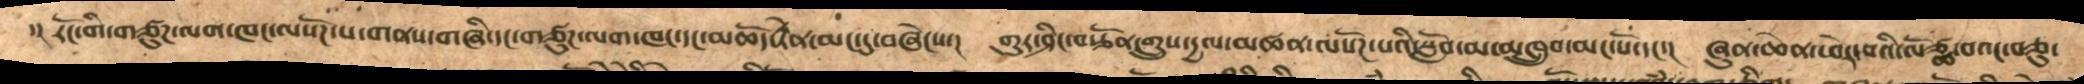་། རོང་གི་གཙུཌ་ལག་ཁང་ལ་སོཌ་པ་གནས་གཞི་དང་གཙུཌ་ལག་ཁང་དང་མཆོད་རྟེན་མང་དུ་བཞེངས་།   གུར་ཤིང་བརྩོན་གྲུས་དྱལ་མཚན་ལ་སོཌ་པའི་སློབ་མ་མཁྲུབ་མང་པོ་དང་།   ཞུན་ཆེན་ཕེར་བའི་ལོཙྪ་བའང་བཅུ་
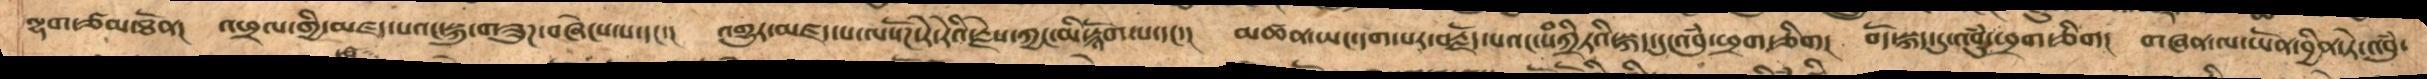ལྷག་ཙམ་ཐོན།  འཕྲལ་གྱི་མཛད་པའང་སྐུ་གཟུཌ་བཞེངས་པ་དང་།  འགྱུར་མཛད་པ་ལསོཌ་རེ་རེའི་རྗེས་ཀྱང་མི་རྙོག་པ་དང་།    མཚན་ཡང་དག་པར་བརྗོད་པའང་སཾཀྲིཏའི་སྐད་དུ་འབུཾ་ཕྲག་ཅིག།   བོད་སྐད་དུ་འབུཾ་ཕྲག་ཅིག།   གཞན་ལ་ཡོན་བྱིན་ཏེ་འབུཾ་
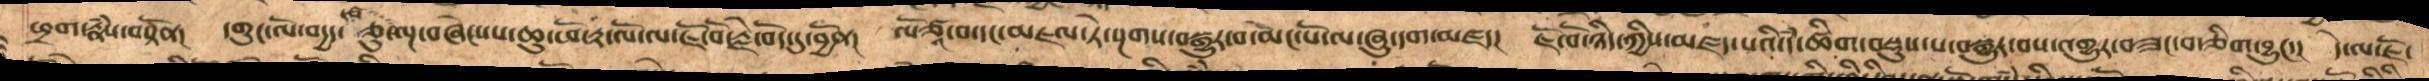ཕྲག་རྣཾས་བསྟོན། དགུང་ལོ་བདྱད་ཅུ་རྩ་ལྔ་བཞེངས་པ་ཆུ་ཕོ་རྟ་ལོ་ལ་ཇོ་བོ་རྗེ་བོད་དུ་བྱོན།  ལོཙཱ་བ་དང་མཇལ་ཏེ་སྔགས་བསྒྱུར་བ་མང་པོ་ལ་ཞུ་དག་མཛད། ཇོ་བོ་ཉིད་ཀྱིས་མཛད་པའི་དཾ་ཚིག་བསྡུས་པ་བསྒྱུར་བས་འགྱུར་བཟང་བ་ཅིག་བྱུང་། དེ་ལ་ཇོ་
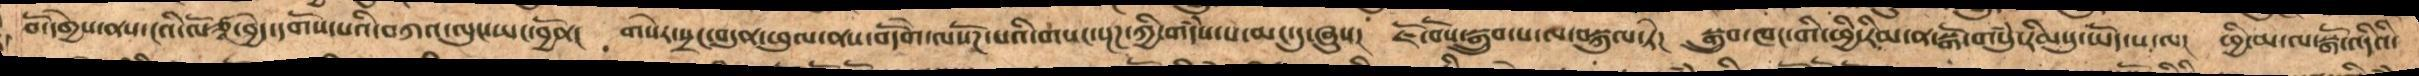བོ་དགྱེས་ནས་ངའི་ལོཙཱ་བྱེད་དགོས་པའི་བཀའ་ལུང་ཡང་བྱོན།  གསེར་སྲང་བདུན་ཕུལ་ནས་བདེོག་ལསོཌ་པའི་གསང་སྔཌ་ཀྱི་གདཾས་པ་མང་དུ་ཞུས།  ཇོ་བོས་སྒྲུབ་པ་ལ་བསྐུལ་ཏེ།   སྒྲུབ་ཁང་གི་ཕྱི་རིམ་ན་སྒོ་གསུཾ་རིམ་དུ་ཡོད་པ་ལ།  ཕྱི་མ་ལ་སྒོ་འདིའི་
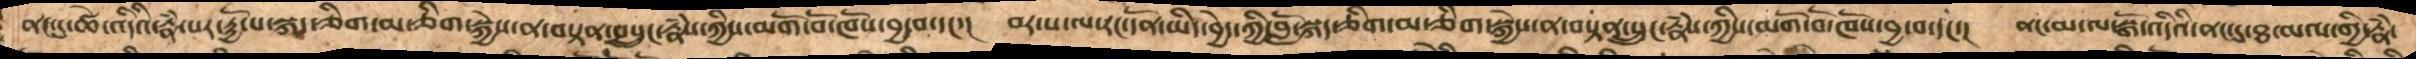ནང་དུ་ཚེ་འདིའི་རྣཾ་པར་རྟྱོ་པ་སྐད་ཅིག་མ་ཅིག་སྐྱེས་ན་བསྟན་བསྲུང་རྣཾས་ཀྱིས་མགོ་བོ་ཁོས་བྱ་བ་དང་།   བར་པ་ལ་རང་དོན་ཡིད་བྱེད་ཀྱི་བློ་སྐད་ཅིག་མ་ཅིག་སྐྱེས་ན་བསྟན་སྲུང་སརྣཾས་ཀྱིས་མགོ་བོ་ཁོས་བྱ་བ་དང་།   ནང་མ་ལ་སྒོ་འདིའི་ནང་དུ་ཐ་མལ་གྱི་རྣཾ་
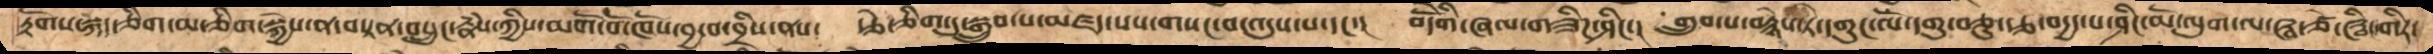རྟོགས་སྐད་ཅིག་མ་ཅིག་སྐྱེས་ན་བསྟན་བསྲུང་རྣཾས་ཀྱིས་མགོ་བོ་ཁོས་བྱ་བ་བྲིས་ནས།   རྩེ་ཅིག་དུ་སྒྲུབ་པ་མཛད་པས་གསང་བ་འདུས་པ་དང་།   བདེོགི་ཞལ་གཟིཌ་ཤིང་།  གྲུབ་པ་བརྙེས་ཏེ་དགུང་ལོ་དགུ་བཅུ་རྩ་བདྱད་པ་ཤིང་མོ་ལུག་ལ་ཝ་ཙེ་ཝི་གིར་
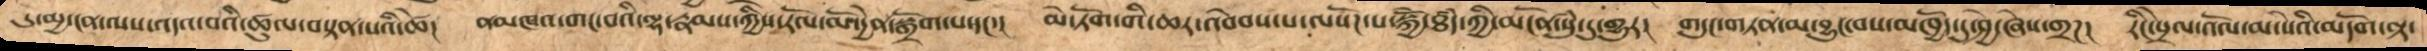དུ་མྱ་ངན་ལས་འདའ་བའི་ཚུལ་བསྟན་པའི་ཚེ།   ནམཁའ་གང་བའི་ལྷ་རྣམས་ཀྱིས་རོལ་མོ་དྱེན་སྒྲོག་པ་དང་།    མེ་ཏོག་གི་ཆར་འབེབས་པ་ལསོཌ་པ་སྐྱེོ་ཐཾད་ཀྱི་མངོན་སུཾ་དུ་གྱུར།  གདུང་གཏན་མ་བྱུང་བས་མཁྱོད་དུ་ཤྱེ་ཞེས་གྲཌ། རིང་སྲེལ་འོལ་མ་སེའི་མདོག་ལྟ་
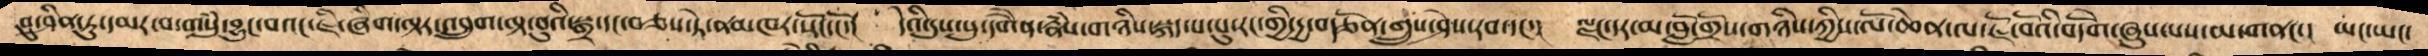བུ་ཤིན་ཏུ་དམར་བ་གསུཾ་བྱུང་བའང་ཇི་ཞིག་ལྟར་འབྲུག་ལྟ་བུའི་སྒྲ་དང་བཅས་ཏེ་ནམཁར་སོང་ངོ་།   དེའི་དུས་སུ་དགཻན་རྣཾས་པ་གཉིས་སྐད་པ་པུ་རང་གྱི་དྱ་བརྩོན་གྲུས་ཤེས་རབ་དང་།  ལྗང་དར་མ་བློ་གྲོས་གཉིས་ཀྱིས་ལོ་ཆེན་ལ་ཇོ་བོའི་བདེོག་ཞུས་པས་མ་གནང་།  ཡང་ཡང་
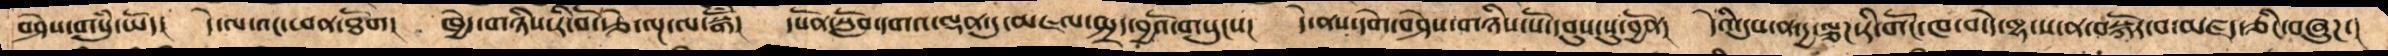བཤེས་གསུཾ་ཡོད།   དེ་ལ་འང་ཕན་ཐོག།   ཁྱེད་གཉིས་རི་བོ་རྩེ་ལྔ་ལ་སྒོཾ།   དཔོན་སློབ་དགའ་ལྡན་དུ་མཇལ་སྤྲད་བྱའོ་གསུངས།   དེ་ནས་དགེ་བཤེས་གཉིས་པོ་དབུས་སུ་བྱོན།    དེའི་དུས་ན་དྱ་ལྕཌ་རི་གོང་ཁ་བ་དེ་ལྷ་ས་ན་བསྐོར་བ་མཛད་ཅིང་བཞུཌ་།
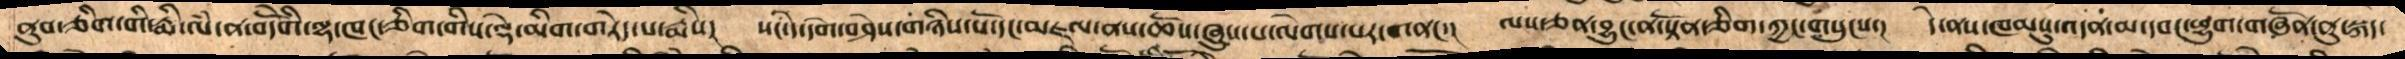ནུབ་གཅིག་གི་རྨི་ལཾ་ན་བདེོགི་ལྷ་ཁང་ཅིག་གིས་ལྡེ་མིག་གཏེད་པ་རྨིས།  སང་དེ་དགེ་བཤེས་གཉིས་པོ་དང་མཇལ་ནས་ཆོས་ཞུས་པ་ལ་ལེགས་པར་གནང་།   ལས་ཅན་བྱུང་ན་སྟོན་ཅིག་ཀྱང་གསུངས།   དེ་ནས་ཁམསུ་འདན་མ་དབང་ཕྱུག་གཞོན་ནུ་སྐད་
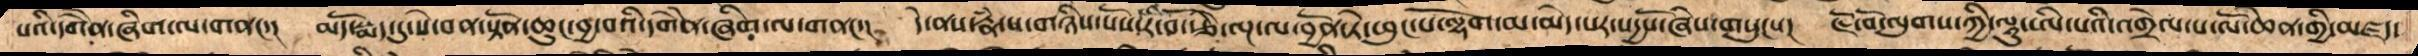པའི་དགཻན་ཞིག་ལ་གནང་།   མདོ་སྨད་དུ་སེ་བན་སྟོན་ཆུང་བྱ་བའི་དགཻན་ཞིག་ལ་གནང་།   དེ་ནས་རྣཾ་པ་གཉིས་པོས་རི་བོ་རྩེ་ལྔ་ལ་བྱོན་ཏེ་ཕུང་པོ་ལྷག་མ་མེད་པར་སདྱསོ་ཞེས་གསུངས།  ཇོ་བོ་ལུགས་ཀྱི་ལྟུ་ཨི་པའི་འགྲེལ་པ་ལོ་ཆེན་གྱི་མཛད་
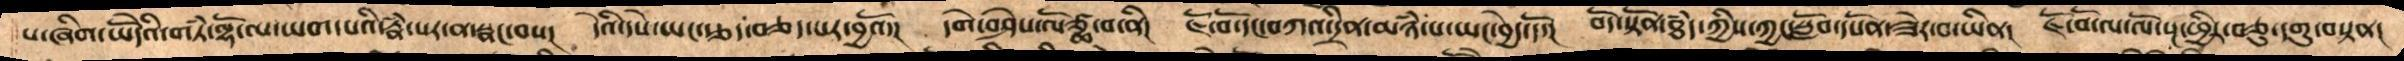པ་ཞིག་ཡོེའི་གཏཾ་ལྷོ་ལ་ཡག་པའི་རྣཾ་པར་ན་སྣང་བས།   དེའི་དཔེ་ཡང་རྩད་བཅད་པར་བྱའོ།   དགེ་བཤེས་ལོཙྪ་བ་ནི།   ཇོ་བོ་དང་བཀའ་དྲིན་མཉཾ་པ་ཡང་བྱེད་དོ།   བོད་སྟོན་ཐཾད་ཀྱིས་ཀྱང་སློབ་དཔོན་ཟེར་བ་ཡིན།  ཇོ་བོ་ལ་ལོ་སྔ་ཕྱིར་བཅུ་དགུ་བསྟན།
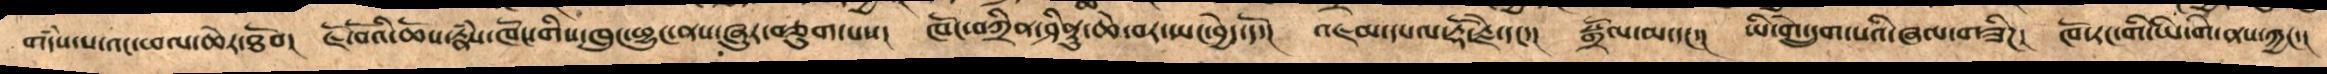གདཾས་པ་འང་ཕལ་ཆེར་ཐོབ།   ཇོ་བོའི་ཆོས་རྣཾས་ཁོང་གིས་ཁུང་ཕྱུང་ནས་ཞུར་བཅུག་པས།   ཁོང་བཀྲིན་ཤིནྟུ་ཆེ་བར་་བྱེད་དོ་།   འཇམ་དཔལ་རྡོ་རྗེ་དང་།   སྒྲོལ་མ་དང་།   ཡི་གེ་དྲུག་པའི་ཞལ་གཟིཌ།  ཁོ་རང་གི་ཡི་གེ་ནས་ཀྱང་།
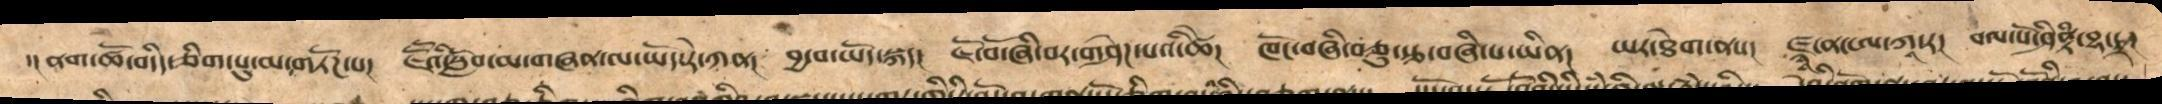་།ནག་ཚོ་བདིད་ཅིག་པུ་མ་གཏོཌ་པ། ཇཽའི་སློབ་མ་གཞན་ལ་ཡོད་རེ་ཀན།  བྱ་བ་ཡོད་སྐད། ཇོ་བོ་ཞི་བར་གཤེཌ་པའི་ཚེ། ཁོང་བཞི་ཅུ་རྩ་བཞི་པ་ཡིན། ཡར་ཐེག་ནས། ཛྙཱ་ན་ཨཱ་ཀཱ་ར། བལ་པོ་ཤཱནྟི་བྷ་དྲ།
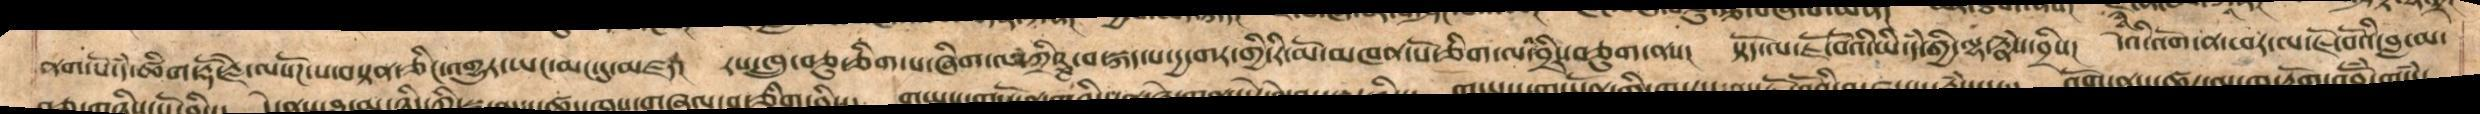ནག་པོ་དཾ་ཚིག་རྡོ་རྗེ་ལསོཌ་པ་བསྟན་ཅིང་འགྱུར་ཡང་མང་དུ་མཛད། རས་ཁྲུ་བཅུ་ཅིག་པ་ཞིག་ལ་ཀྲིཥྞ་བ་སྐད་པ་དྱ་གར་གྱི་རི་མོ་མཁན་པོ་ཅིག་ལ་འབྲིར་བཅུག་ནས། སྟོད་ལ་ཇོ་བོའི་ཡི་དཾ་གྱི་ལྷ་རྣཾས་བྲིས། དེའི་འོག་ན་ཕར་ལ་ཇོ་བོའི་བླ་མ་
